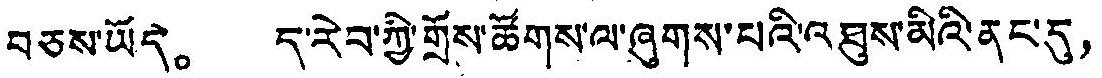བཅས་ཡོད。 ད་རེབ་ཀྱི་གྲོས་ཚོགས་ལ་ཞུགས་པའི་འཐུས་མིའི་ནང་དུ，
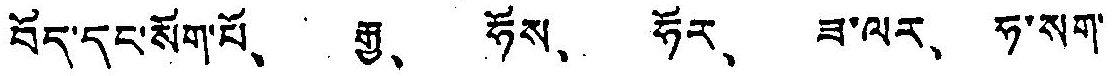བོད་དང་སོག་པོ、 རྒྱ、 ཧོས、 ཧོར、 ཟ་ལར、 ཧ་སག་
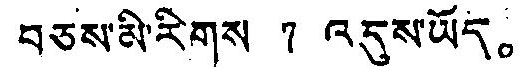བཅས་མི་རིགས 7 འདུས་ཡོད。
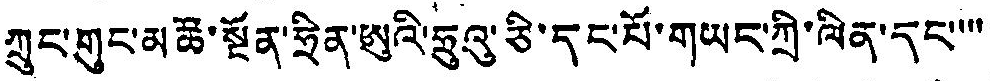ཀྲུང་གུང་མཚོ་སྔོན་ཧྲིན་ཨུའི་ཧྲུའུ་ཅི་དང་པོ་གཡང་ཀྲི་ལིན་དང་་་་
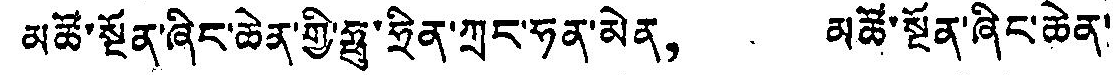མཚོ་སྔོན་ཞིང་ཆེན་གྱི་ཧྥུ་ཧྲིན་ཀྲང་ཧན་མེན， མཚོ་སྔོན་ཞིང་ཆེན་
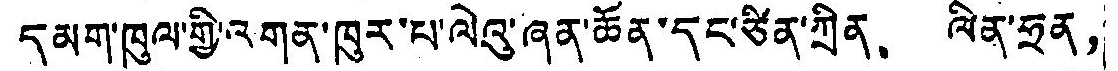དམག་ཁུལ་གྱི་འགན་ཁུར་པ་ལེའུ་ཞན་ཆོན་དང་ཙིན་ཀྲིན、 ལིན་ཧྲན，
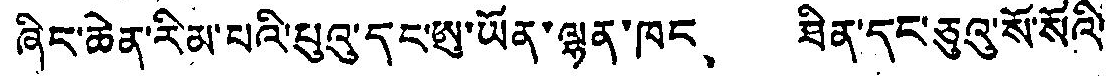ཞིང་ཆེན་རིམ་པའི་པུའུ་དང་ཨུ་ཡོན་ལྷན་ཁང、 ཐིན་དང་ཅུའུ་སོ་སོའི་
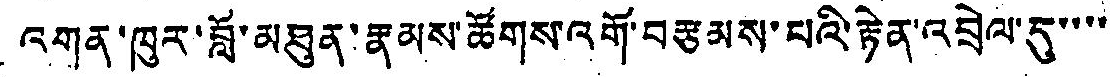འགན་ཁུར་བློ་མཐུན་རྣམས་ཚོགས་འགོ་བརྩམས་པའི་རྟེན་འབྲེལ་དུ་་་་
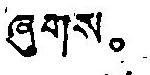ཞུགས。
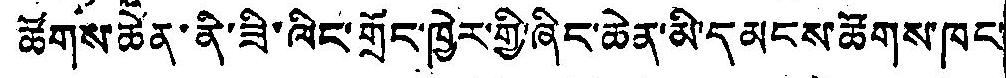ཚོགས་ཆེན་ནི་ཟི་ལིང་གྲོང་ཁྱེར་གྱི་ཞིང་ཆེན་མི་དམངས་ཚོགས་ཁང་
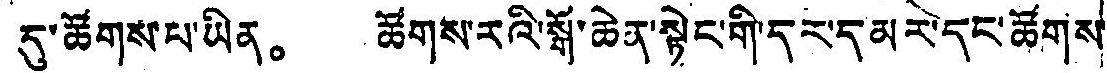དུ་ཚོགས་པ་ཡིན。 ཚོགས་རའི་སྒོ་ཆེན་སྟེང་གི་དར་དམར་དང་ཚོགས་
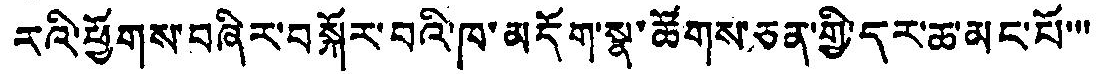རའི་ཕྱོགས་བཞིར་བསྐོར་བའི་ཁ་མདོག་སྣ་ཚོགས་ཅན་གྱི་དར་ཆ་མང་པོ་་་
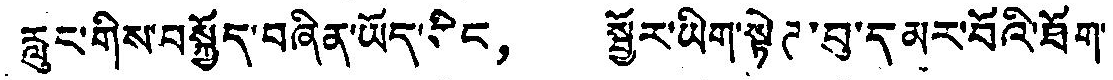རླུང་གིས་བསྐྱོད་བཞིན་ཡོད་ཅིང， སྦྱོར་ཡིག་སྟེཊ་བུ་དམར་པོའི་ཐོག་
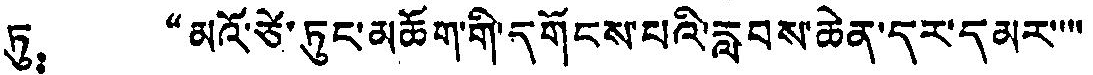ཏུ： “མའོ་ཙེ་ཏུང་མཆོག་གི་དགོངས་པའི་རླབས་ཆེན་དར་དམར་་་་
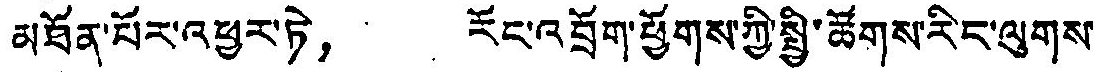མཐོན་པོར་འཕྱར་ཏེ， རོང་འབྲོག་ཕྱོགས་ཀྱི་སྤྱི་ཚོགས་རིང་ལུགས་
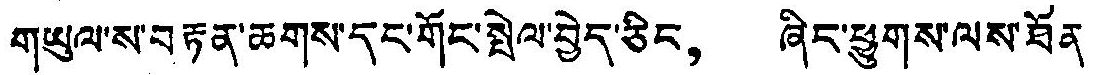གཡུལ་ས་བརྟན་ཆགས་དང་གོང་སྤེལ་བྱེད་ཅིང， ཞིང་ཕྱུགས་ལས་ཐོན
